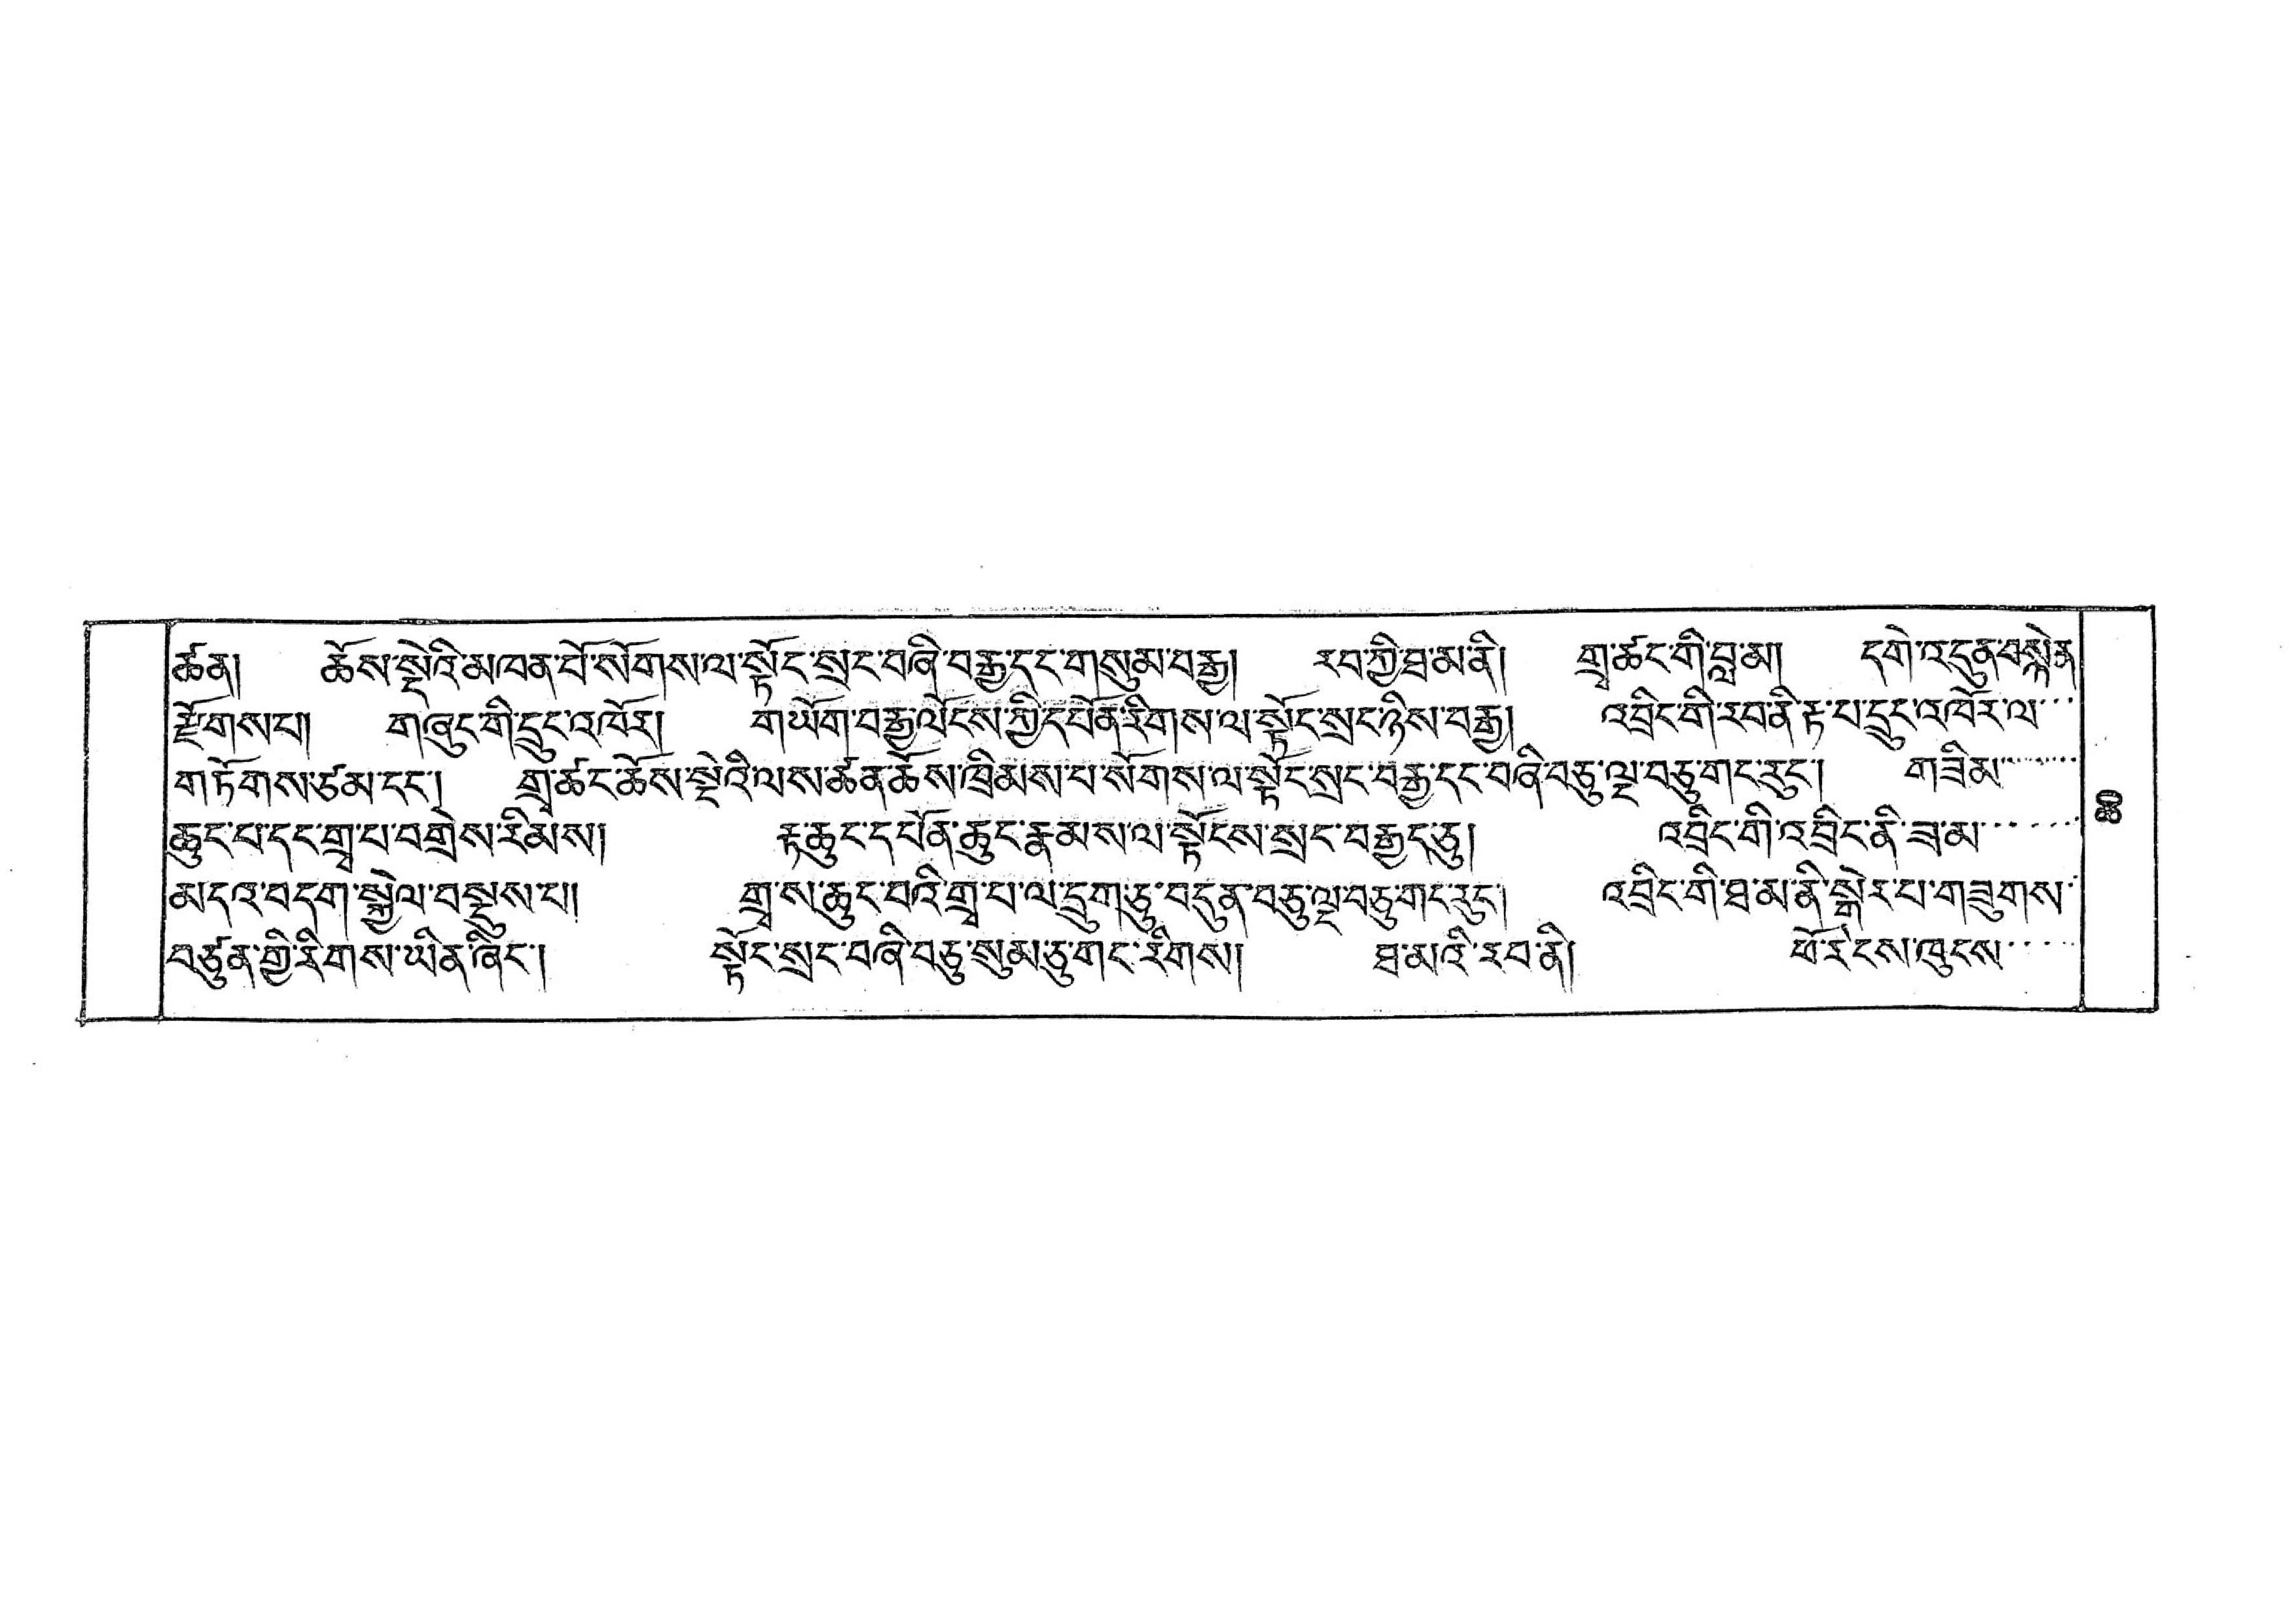ཚན། ཆོས་སྡེའི་མཁན་པོ་སོགས་ལ་སྟོང་སྲང་བཞི་བརྒྱ་དང་གསུམ་བརྒྱ། རབ་ཀྱི་ཐ་མ་ནི། གྲྭ་ཚང་གི་བླ་མ། དགེ་འདུན་བསྙེན་
རྫོགས་པ། གཞུང་གི་དྲུང་འཁོར། གཡོག་བརྒྱ་ལོངས་ཀྱི་དཔོན་རིགས་ལ་སྟོང་སྲང་ཉིས་བརྒྱ། འབྲིང་གི་རབ་ནི་རྟ་པ་དྲུང་འཁོར་ལ་་་
གཏོགས་ཙམ་དང་། གྲྭ་ཚང་ཆོས་སྡེའི་ལས་ཚན་ཆོས་ཁྲིམས་པ་སོགས་ལ་སྟོང་སྲང་བརྒྱ་དང་བཞི་བཅུ་ལྔ་བཅུ་གང་རུང་། གཟིམ་་་་་་་་
ཆུང་པ་དང་གྲྭ་པ་བགྲེས་རིམས། རྟ་ཆུང་དཔོན་ཆུང་རྣམས་ལ་སྟོངས་སྲང་བརྒྱད་ཅུ། འབྲིང་གི་འབྲིང་ནི་ཟ་མ་་་་་་
མདའ་བདག་སྐྱེལ་བསས་པ། གྲྭ་ས་ཆུང་བའི་གྲྭ་པ་ལ་དྲུག་ཅུ་བདུན་བཅུ་ལྔ་བཅུ་གང་རུང་། འབྲིང་གི་ཐ་མ་ནི་སྒེར་པ་གཟུགས་
བཙུན་གྱི་རིགས་ཡིན་ཞིང་། སྟོང་སྲང་བཞི་བཅུ་སུམ་ཅུ་གང་རིགས། ཐ་མའི་རབ་ནི། ཕོ་རེངས་ཁུངས་་་་
